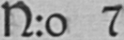N:o 7
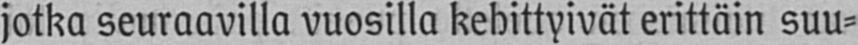jotka seuraavilla vuosilla kehittyivät erittäin suu-
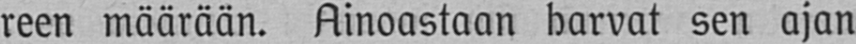reen määrään. Ainoastaan harvat sen ajan
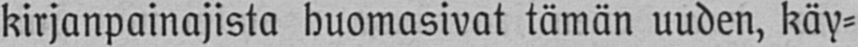kirjanpainajista huomasivat tämän uuden, käy-
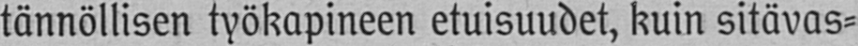tännöllisen työkapineen etuisuudet, kuin sitävas-
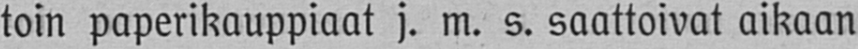toin paperikauppiaat j. m. s. saattoivat aikaan
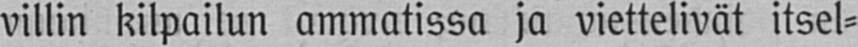villin kilpailun ammatissa ja viettelivät itsel-
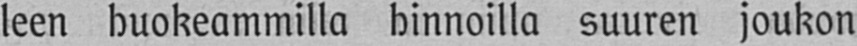leen huokeammilla hinnoilla suuren joukon
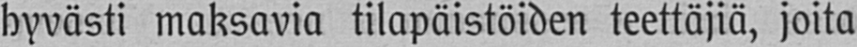hyvästi maksavia tilapäistöiden teettäjiä, joita
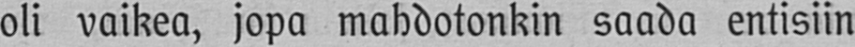oli vaikea, jopa mahdotonkin saada entisiin
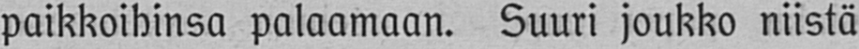paikkoihinsa palaamaan. Suuri joukko niistä
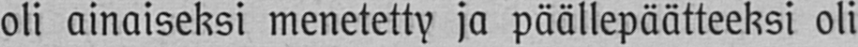oli ainaiseksi menetetty ja päällepäätteeksi oli
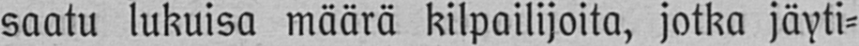saatu lukuisa määrä kilpailijoita, jotka jäyti-
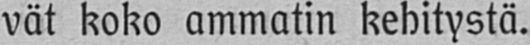vät koko ammatin kehitystä.
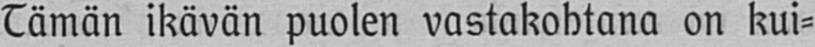Tämän ikävän puolen vastakohtana on kui-
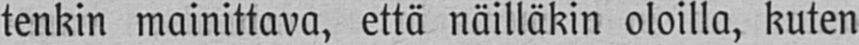tenkin mainittava, että näilläkin oloilla, kuten
